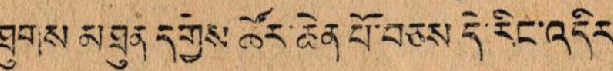ཐུགས མཐུན དགྱེས ཚོར་ཆེན་པོ་བཅས་དེ་རིང་འདིར་
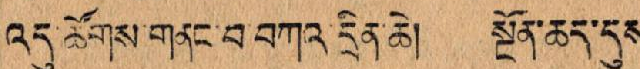འདུ་ཚོགས་གནང་བ་བཀའ དྲིན་ཆེ། སྔོན་ཆད་དུས་
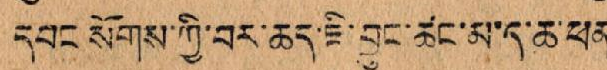དབང སོགས་ཀྱི་བར་ཆད་ཇི་བྱུང་ཚང་མ་ད་ཆ་ཕན་
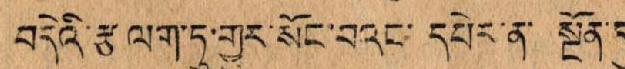བདེའི་རྩ ལག་ཏུ་གྱུར་སོང་བའང་ དཔེར་ན་ སྔོན་དུ་
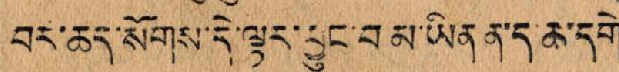བར་ཆད་སོགས་དེ་ལྟར་བྱུང་བ མ་ཡིན ན་ད ཆ་དགེ་
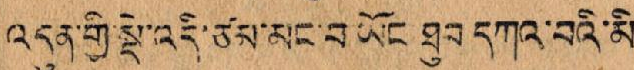འདུན་གྱི་སྡེ་འདི་ཙམ་མང་བ་ཡོང ཐུབ དཀའ་བའི་མི་
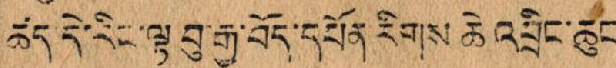ཚད་དེ་རིང་ལྟ་བུ་རྒྱ་བོད་དཔོན་རིགས ཆེ འབྲིང་ཆུང་
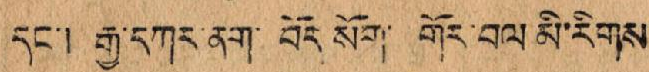དང་། རྒྱ་དཀར་ནག་ བོད་སོག་ གོར་བལ་མི་རིགས་
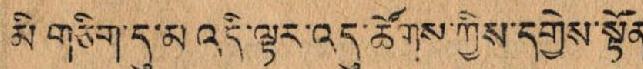མི་གཅིག་དུ་མ་འདི་ལྟར་འདུ་ཚོགས་ཀྱིས་དགྱེས་སྟོན་
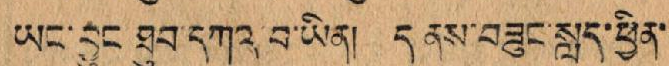ཡང་བྱུང ཐུབ་དཀའ བ་ཡིན། ད ནས་བཟུང་སླད་ཕྱིན་
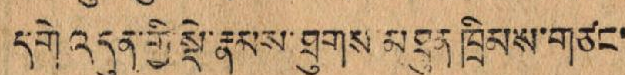དགེ་འདུན་གྱི་སྡེ་རྣམས་ཐུགས མཐུན་ཁྲིམས་གཙང་
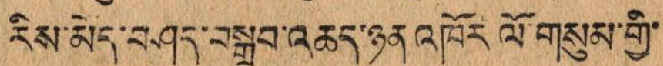རིས་མེད་བཤད་བསྒྲུབ་འཆད་ཉན་འཁོར་ལོ་གསུམ་གྱི་
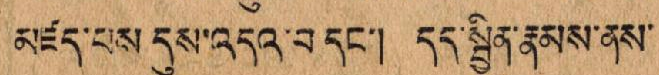མཛད་པས་དུས་འདའ་བ་དང་། དད་སྤྱིན་རྣམས་ནས་
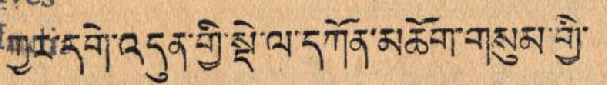ཀྱར་དགེ་འདུན་གྱི་སྡེ་ལ་དཀོན་མཆོག་གསུམ་གྱི་
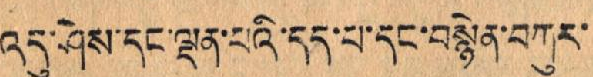འདུ་ཤེས་དང་ལྡན་པའི་དད་པ་དང་བསྙེད་བཀུར་
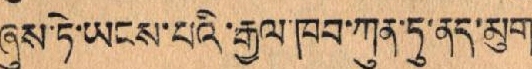ཞུས་ཏེ་ཡངས་པའི་རྒྱལ་ཁབ་ཀུན་ཏུ་ནད་མུག་
